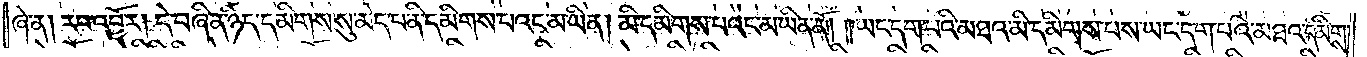ཞེ་ན། རབ་འབྱོར། དེ་བཞིན་ཉིད་དམིགས་སུ་མེད་པ་ནི་དམིགས་པའང་མ་ཡིན། མི་དམིགས་པའང་མ་ཡིན་ནོ། །ཡང་དག་པའི་མཐའ་མི་དམིགས་པས་ཡང་དག་པའི་མཐའ་དམིགས་
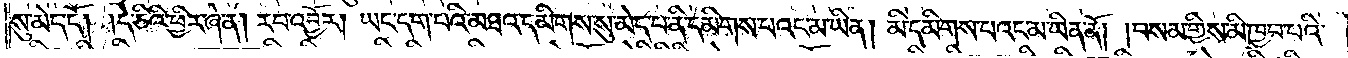སུ་མེད་དོ། །དེ་ཅིའི་ཕྱིར་ཞེ་ན། རབ་འབྱོར། ཡང་དག་པའི་མཐའ་དམིགས་སུ་མེད་པ་ནི་དམིགས་པའང་མ་ཡིན། མི་དམིགས་པའང་མ་ཡིན་ནོ། །བསམ་གྱིས་མི་ཁྱབ་པའི་
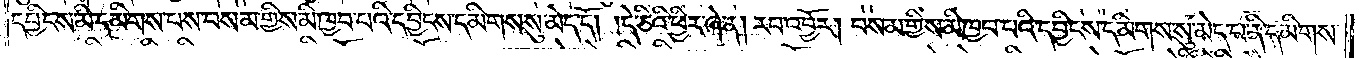དབྱིངས་མི་དམིགས་པས་བསམ་གྱིས་མི་ཁྱབ་པའི་དབྱིངས་དམིགས་སུ་མེད་དོ། །དེ་ཅིའི་ཕྱིར་ཞེ་ན། རབ་འབྱོར། བསམ་གྱིས་མི་ཁྱབ་པའི་དབྱིངས་དམིགས་སུ་མེད་པ་ནི་དམིགས་
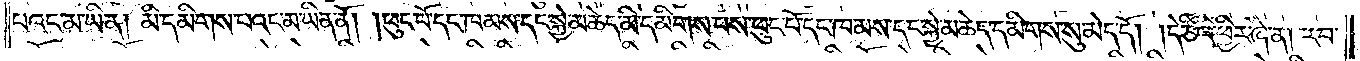པའང་མ་ཡིན། མི་དམིགས་པའང་མ་ཡིན་ནོ། །ཕུང་པོ་དང་ཁམས་དང་སྐྱེ་མཆེད་མི་དམིགས་པས་ཕུང་པོ་དང་ཁམས་དང་སྐྱེ་མཆེད་དམིགས་སུ་མེད་དོ། །དེ་ཅིའི་ཕྱིར་ཞེ་ན། རབ་
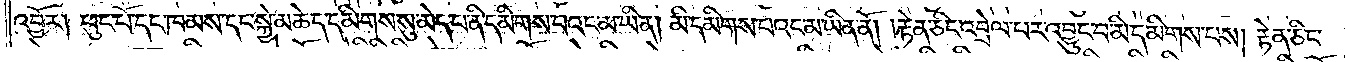འབྱོར། ཕུང་པོ་དང་ཁམས་དང་སྐྱེ་མཆེད་དམིགས་སུ་མེད་པ་ནི་དམིགས་པའང་མ་ཡིན། མི་དམིགས་པའང་མ་ཡིན་ནོ། །རྟེན་ཅིང་འབྲེལ་བར་འབྱུང་བ་མི་དམིགས་པས། རྟེན་ཅིང་
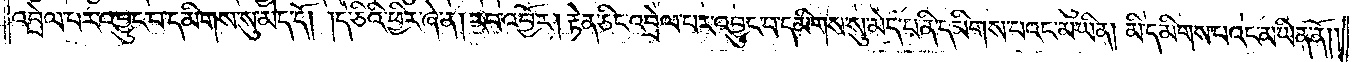འབྲེལ་བར་འབྱུང་བ་དམིགས་སུ་མེད་དོ། །དེ་ཅིའི་ཕྱིར་ཞེ་ན། རབ་འབྱོར། རྟེན་ཅིང་འབྲེལ་བར་འབྱུང་བ་དམིགས་སུ་མེད་པ་ནི་དམིགས་པའང་མ་ཡིན། མི་དམིགས་པའང་མ་ཡིན་ནོ། །
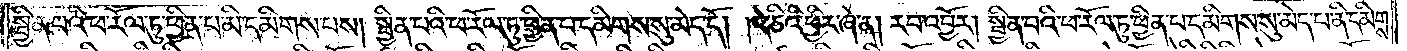སྦྱིན་པའི་ཕ་རོལ་ཏུ་ཕྱིན་པ་མི་དམིགས་པས། སྦྱིན་པའི་ཕ་རོལ་ཏུ་ཕྱིན་པ་དམིགས་སུ་མེད་དོ། །དེ་ཅིའི་ཕྱིར་ཞེ་ན། རབ་འབྱོར། སྦྱིན་པའི་ཕ་རོལ་ཏུ་ཕྱིན་པ་དམིགས་སུ་མེད་པ་ནི་དམིགས་
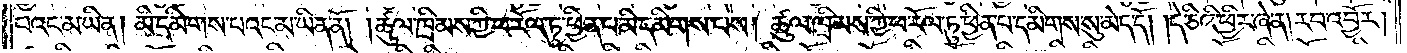པའང་མ་ཡིན། མི་དམིགས་པའང་མ་ཡིན་ནོ། །ཚུལ་ཁྲིམས་ཀྱི་ཕ་རོལ་ཏུ་ཕྱིན་པ་མི་དམིགས་པས། ཚུལ་ཁྲིམས་ཀྱི་ཕ་རོལ་ཏུ་ཕྱིན་པ་དམིགས་སུ་མེད་དོ། །དེ་ཅིའི་ཕྱིར་ཞེ་ན། རབ་འབྱོར།
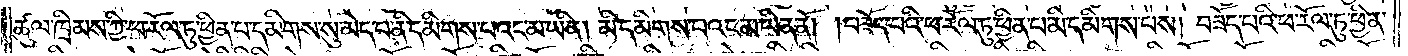ཚུལ་ཁྲིམས་ཀྱི་ཕ་རོལ་ཏུ་ཕྱིན་པ་དམིགས་སུ་མེད་པ་ནི་དམིགས་པའང་མ་ཡིན། མི་དམིགས་པའང་མ་ཡིན་ནོ། །བཟོད་པའི་ཕ་རོལ་ཏུ་ཕྱིན་པ་མི་དམིགས་པས། བཟོད་པའི་ཕ་རོལ་ཏུ་ཕྱིན་
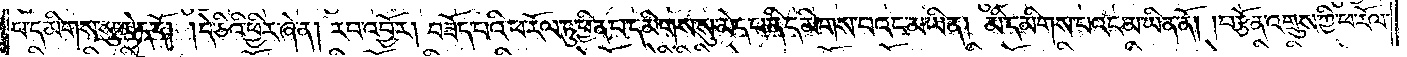པ་དམིགས་སུ་མེད་དོ། །དེ་ཅིའི་ཕྱིར་ཞེ་ན། རབ་འབྱོར། བཟོད་པའི་ཕ་རོལ་ཏུ་ཕྱིན་པ་དམིགས་སུ་མེད་པ་ནི་དམིགས་པའང་མ་ཡིན། མི་དམིགས་པའང་མ་ཡིན་ནོ། །བརྩོན་འགྲུས་ཀྱི་ཕ་རོལ་
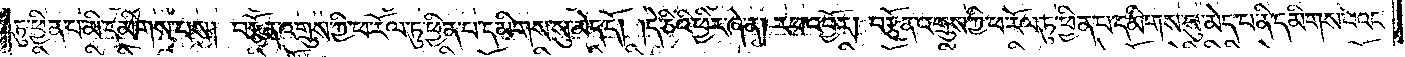ཏུ་ཕྱིན་པ་མི་དམིགས་པས། བརྩོན་འགྲུས་ཀྱི་ཕ་རོལ་ཏུ་ཕྱིན་པ་དམིགས་སུ་མེད་དོ། །དེ་ཅིའི་ཕྱིར་ཞེ་ན། རབ་འབྱོར། བརྩོན་འགྲུས་ཀྱི་ཕ་རོལ་ཏུ་ཕྱིན་པ་དམིགས་སུ་མེད་པ་ནི་དམིགས་པའང་
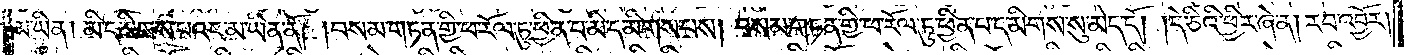མ་ཡིན། མི་དམིགས་པའང་མ་ཡིན་ནོ། །བསམ་གཏན་གྱི་ཕ་རོལ་ཏུ་ཕྱིན་པ་མི་དམིགས་པས། བསམ་གཏན་གྱི་ཕ་རོལ་ཏུ་ཕྱིན་པ་དམིགས་སུ་མེད་དོ། །དེ་ཅིའི་ཕྱིར་ཞེ་ན། རབ་འབྱོར།
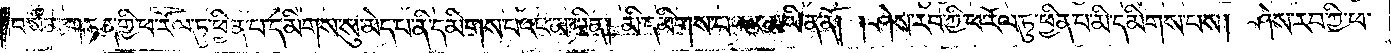བསམ་གཏན་གྱི་ཕ་རོལ་ཏུ་ཕྱིན་པ་དམིགས་སུ་མེད་པ་ནི་དམིགས་པའང་མ་ཡིན། མི་དམིགས་པའང་མ་ཡིན་ནོ། །ཤེས་རབ་ཀྱི་ཕ་རོལ་ཏུ་ཕྱིན་པ་མི་དམིགས་པས། ཤེས་རབ་ཀྱི་ཕ་
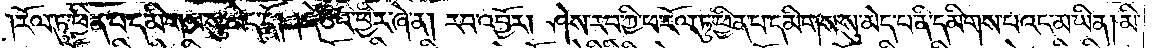རོལ་ཏུ་ཕྱིན་པ་དམིགས་སུ་མེད་དོ། །དེ་ཅིའི་ཕྱིར་ཞེ་ན། རབ་འབྱོར། ཤེས་རབ་ཀྱི་ཕ་རོལ་ཏུ་ཕྱིན་པ་དམིགས་སུ་མེད་པ་ནི་དམིགས་པའང་མ་ཡིན། མི་
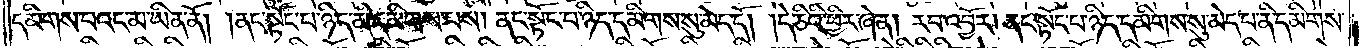དམིགས་པའང་མ་ཡིན་ནོ། །ནང་སྟོང་པ་ཉིད་མི་དམིགས་པས། ནང་སྟོང་པ་ཉིད་དམིགས་སུ་མེད་དོ། །དེ་ཅིའི་ཕྱིར་ཞེ་ན། རབ་འབྱོར། ནང་སྟོང་པ་ཉིད་དམིགས་སུ་མེད་པ་ནི་དམིགས་
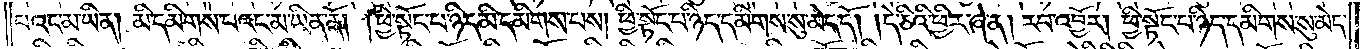པའང་མ་ཡིན། མི་དམིགས་པའང་མ་ཡིན་ནོ། །ཕྱི་སྟོང་པ་ཉིད་མི་དམིགས་པས། ཕྱི་སྟོང་པ་ཉིད་དམིགས་སུ་མེད་དོ། །དེ་ཅིའི་ཕྱིར་ཞེ་ན། རབ་འབྱོར། ཕྱི་སྟོང་པ་ཉིད་དམིགས་སུ་མེད་
